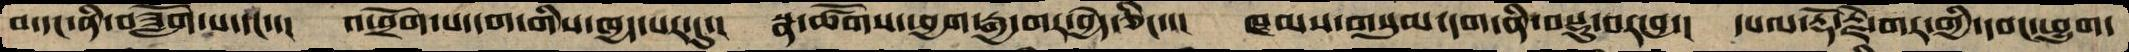བ་དང་ནི་བཟློག་པ་དང་་།  འཕྲོག་པ་དག་གིས་ཁྱད་པར་དུ་།  སྣ་ཚོགས་ཕྱག་རྒྱ་གར་བྱེད་ཅིང་་།  ཁམས་གསུམ་དག་ནི་བསྡུ་བར་བྱ་།  དཔལ་རྡོ་རྗེ་གར་གྱི་དབང་ཕྱུག་
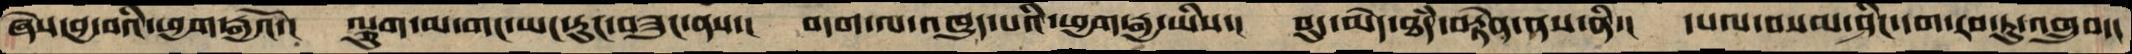ཞེས་བྱ་བའི་ཕྱག་རྒྱའོ་།  ལྕུག་མ་གང་ཡང་རུང་བཟུང་ནས་།  བདག་ལ་འཁྱུད་པའི་ཕྱག་རྒྱ་ཡིས་།  བུད་མེད་ཐཾད་བརྟེན་ནས་ནི་།  དཔལ་བསམ་ཤིང་དག་རབ་ཏུ་འགྲུབ་།
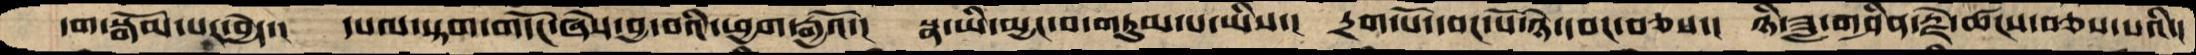དག་སྒོམ་པར་བྱེད་།  དཔལ་སྟག་གདོང་ཞེས་བྱ་བའི་ཕྱག་རྒྱའོ་།  སྣ་ཡི་མྱང་བ་གཏུམ་པ་ཡིས་།  དྲག་པོ་དབང་པོ་ཉེ་དབང་བཅས་།  ཉི་ཟླ་གཤིན་རྗེ་ཚངས་བཅས་པའི་།
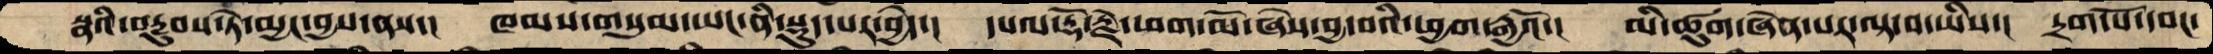སྣའི་བརྔུབས་ཏེ་མྱང་བྱས་ནས་།  ཁམས་གསུམ་ཡང་ནི་སྡུད་པར་བྱེད་།  དཔལ་རྡོ་རྗེ་ཕག་མོ་ཞེས་བྱ་བའི་ཕྱག་རྒྱའོ་།  མི་ཚུག་ཞེན་པར་ལྟ་བ་ཡིས་།  དྲག་པོ་དབང་
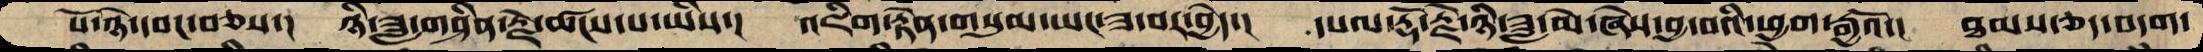པོ་ཉེ་དབང་བཅས་།  ཉི་ཟླ་གཤིན་རྗེ་ཚངས་པ་ཡིས་།  འཇིག་རྟེན་གསུམ་ཡང་ཟ་བར་བྱེད་།  དཔལ་རྡོ་རྗེ་ཉི་ཟླ་མེ་ཞེས་བྱ་བའི་ཕྱག་རྒྱའོ་།  ཐམས་ཅད་བདག་
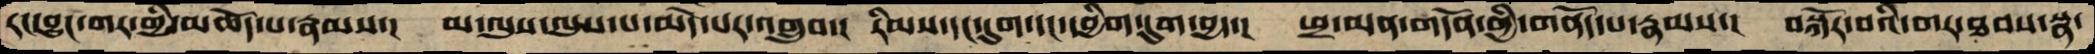རང་བྱུང་གར་གྱི་མཆོད་པ་རྣམས་།  མ་ལུས་ལུས་པ་མེད་པར་འགྲུབ་།  རིམས་དང་དུག་དང་དབྱིག་དུག་བྱད་།  ཕྲ་མན་གདོན་གྱི་གནོད་པ་རྣམས་།  བསྐོར་བའི་གར་ཐབས་སྣ་
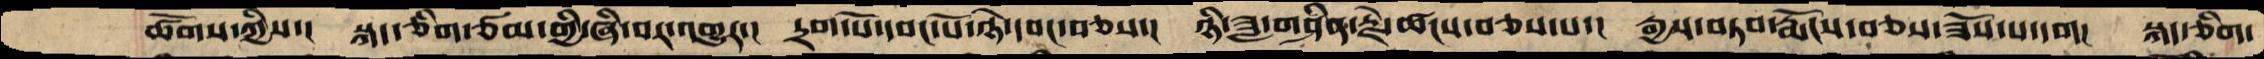ཚོགས་ཀྱིས་།  སྐད་ཅིག་ཙམ་གྱི་ཞི་བར་འགྱུར་།  དྲག་པོ་དབང་པོ་ཉེ་དབང་བཅས་།  ཉི་ཟླ་གཤིན་རྗེ་ཚངས་བཅས་པ་།  རྒྱས་བཏབ་རྨོངས་བཅས་ཟོས་པ་དག།  སྐད་ཅིག་
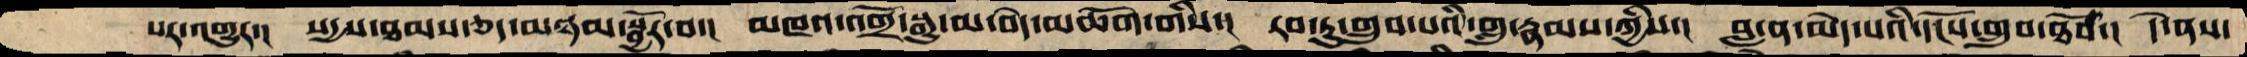པར་འགྱུར་།  སདྱས་ཐམས་ཅད་མཉམསྦྱོར་བ་།   མཁའ་འགྲོ་སྒྱུ་མ་བདེ་མཆོག་གིས་།  རབ་ཏུ་གྲུབ་པའི་གླུ་རྣམས་ཀྱིས་།  བླ་ན་མེད་པའི་དངོས་གྲུབ་ཐོབ་།  དེ་ནས་
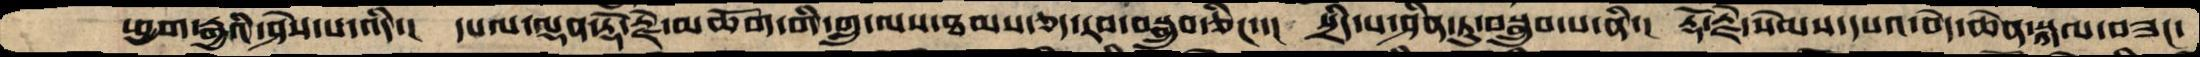ཕྱག་རྒྱའི་ཤེས་པ་འདི་།  དཔལ་ལྡན་རྡོ་རྗེ་མཆོག་གི་གླུ་ལས་ཐམས་ཅད་རབ་བསྒྲུབ་ཅིང་་།  སྲིད་པ་ཤིན་ཏུ་བསྒྲུབ་པ་ནི་།  རྡོརྗེ་སེམས་དཔའ་བདེ་ཆེན་སྐལ་བཟང་
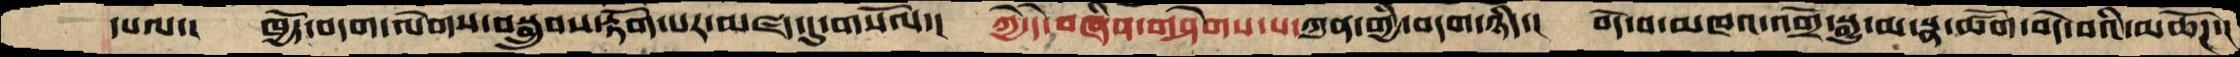དཔལ་།  ཁྱོད་བདག་ལེགས་བསྒྲུབས་རྟོག་པར་མཛད་དུ་གསོལ་།  ཀྱེ་དེ་བཞིན་གཤེགས་པ་ཀུན་གྱི་བདག་ཉིད་།  བདེ་བ་མཁའ་འགྲོ་སྒྱུ་མ་སྣ་ཚོག་བདེ་བའི་མཆོཌ་།
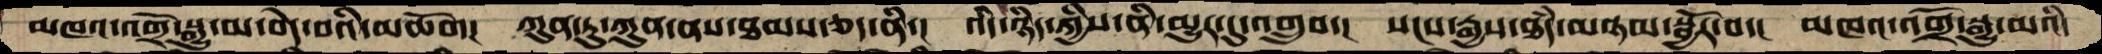མཁའ་འགྲོ་སྒྱུ་མ་བདེ་བའི་མཆོག།  ཀུན་ཏུ་ཀུན་ནས་ཐམས་ཅད་ནི་།  འདི་ཉིད་ཀྱིས་ནི་མྱུར་དུ་འགྲུབ་།  སངས་རྒྱས་ཐཾད་མཉམ་སྦྱོར་བ་། མཁའ་འགྲོ་སྒྱུ་མའི་
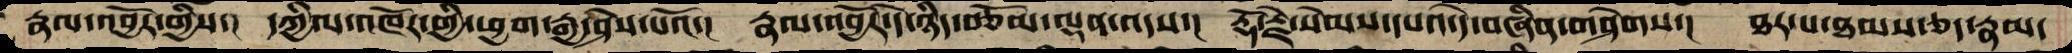རྣལ་འབྱོར་གྱིས་།  དཀྱིལ་འཁོར་གྱི་ཕྱག་རྒྱ་ཤེས་པའོ་།  རྣལ་འབྱོར་དེ་ཉིད་བཅོམ་ལྡན་འདས་།  རྡོ་རྗེ་སེམས་དཔའ་དེ་བཞིན་གཤེགས་།  ཐར་པ་ཐམས་ཅད་རྣམ
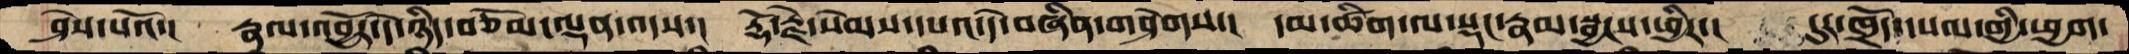ཤེས་པའོ་།  རྣལ་འབྱོར་དེ་ཉིད་བཅོམ་ལྡན་འདས་།  རྡོ་རྗེ་སེམས་དཔའ་དེ་བཞིན་གཤེགས་།  དམ་ཚིག་ལ་སྡང་རྣམ་སྦྱངས་ཕྱིར་།  དུར་ཁྲོད་དཔལ་གྱི་ཕྱག་
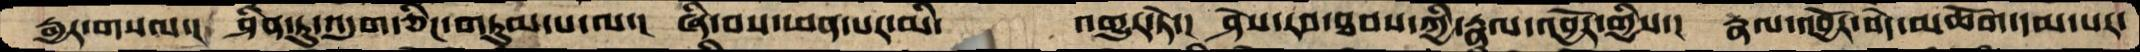རྒྱར་གསལ་།  ཤིན་ཏུ་འདུག་ཅིང་གཏུམ་པ་ལ་།  ཞི་བས་ཕན་པར་མི་     འགྱུར་ཏེ་།  ཤེས་རབ་ཐབས་ཀྱི་རྣལ་འབྱོར་གྱིས་།  རྣལ་འབྱོར་བདེ་མཆོག་དམ་པར་
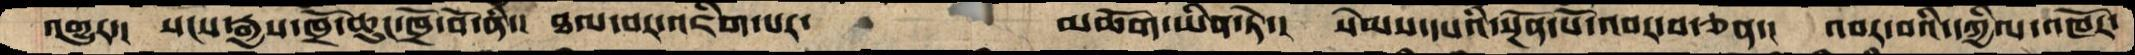འགྱུར་།  སངས་རྒྱས་ཁྲོ་ཆུང་ཁྲོ་བོ་ནི་།  ཐལ་བར་འཇིག་པར་    མཆོག་ཡིན་ཏེ་།  སེམས་དཔའི་སྔོན་པོ་འབར་བ་ཅན་།  འབར་བའི་དཀྱིལ་འཁོར་
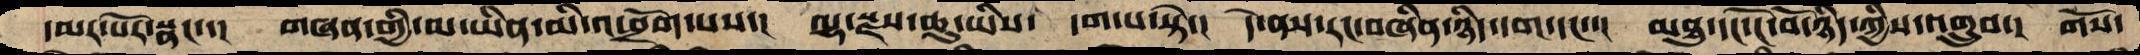དམར་པོར་སྣང་་།  གཞན་གྱི་མ་ཡིན་མི་འཕྲོག་པས་།  ལྷ་སྫས་ཆུ་ཡིས་  དག་པ་སྟེ་།  དེ་ནས་རང་བཞིན་ཉིད་དག་དང་་། མཐུ་དང་ངོ་བོ་ཉིད་ཀྱིས་འགྲུབ་།  གོས་
